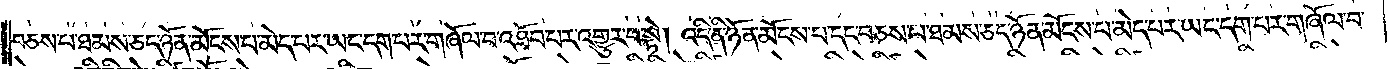བཅས་པ་ཐམས་ཅད་ཉོན་མོངས་པ་མེད་པར་ཡང་དག་པར་གཞོལ་བ་འཐོབ་པར་འགྱུར་བ་སྟེ། འདི་ནི་ཉོན་མོངས་པ་དང་བཅས་པ་ཐམས་ཅད་ཉོན་མོངས་པ་མེད་པར་ཡང་དག་པར་གཞོལ་བ་
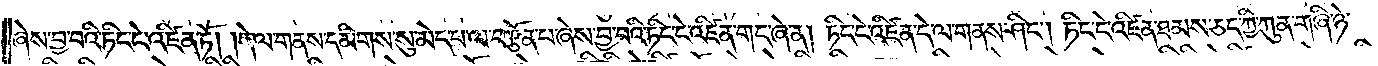ཞེས་བྱ་བའི་ཏིང་ངེ་འཛིན་ཏོ། །དེ་ལ་གནས་དམིགས་སུ་མེད་པ་ལ་བརྩོན་པ་ཞེས་བྱ་བའི་ཏིང་ངེ་འཛིན་གང་ཞེ་ན། ཏིང་ངེ་འཛིན་དེ་ལ་གནས་ཤིང༌། ཏིང་ངེ་འཛིན་ཐམས་ཅད་ཀྱི་ཀུན་གཞི་ཉེ་
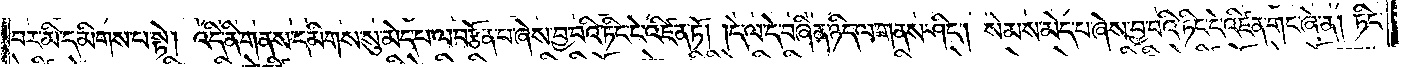བར་མི་དམིགས་པ་སྟེ། འདི་ནི་གནས་དམིགས་སུ་མེད་པ་ལ་བརྩོན་པ་ཞེས་བྱ་བའི་ཏིང་ངེ་འཛིན་ཏོ། །དེ་ལ་དེ་བཞིན་ཉིད་ལ་གནས་ཤིང༌། སེམས་མེད་པ་ཞེས་བྱ་བའི་ཏིང་ངེ་འཛིན་གང་ཞེ་ན། ཏིང་
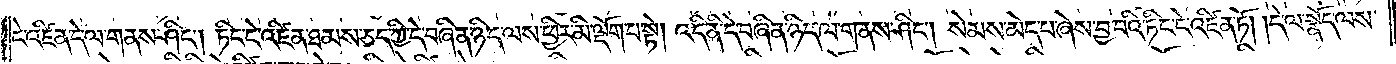ངེ་འཛིན་དེ་ལ་གནས་ཤིང༌། ཏིང་ངེ་འཛིན་ཐམས་ཅད་ཀྱི་དེ་བཞིན་ཉིད་ལས་ཕྱིར་མི་ལྡོག་པ་སྟེ། འདི་ནི་དེ་བཞིན་ཉིད་ལ་གནས་ཤིང༌། སེམས་མེད་པ་ཞེས་བྱ་བའི་ཏིང་ངེ་འཛིན་ཏོ། །དེ་ལ་སྣོད་ལས་
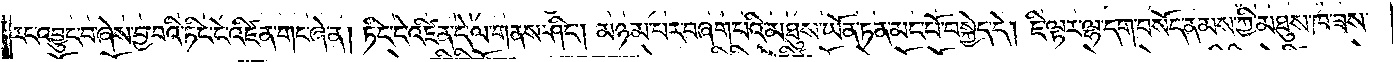རང་འབྱུང་བ་ཞེས་བྱ་བའི་ཏིང་ངེ་འཛིན་གང་ཞེ་ན། ཏིང་ངེ་འཛིན་དེ་ལ་གནས་ཤིང༌། མཉམ་པར་བཞག་པའི་མཐུས་ཡོན་ཏན་མང་པོ་བསྐྱེད་དེ། ཇི་ལྟར་ལྷ་དག་བསོད་ནམས་ཀྱི་མཐུས་ཁ་ཟས་
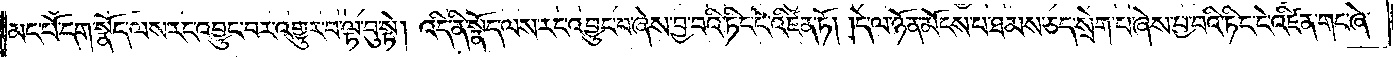མང་པོ་དག་སྣོད་ལས་རང་འབྱུང་བར་འགྱུར་བ་ལྟ་བུ་སྟེ། འདི་ནི་སྣོད་ལས་རང་འབྱུང་བ་ཞེས་བྱ་བའི་ཏིང་ངེ་འཛིན་ཏོ། །དེ་ལ་ཉོན་མོངས་པ་ཐམས་ཅད་སྲེག་པ་ཞེས་བྱ་བའི་ཏིང་ངེ་འཛིན་གང་ཞེ་
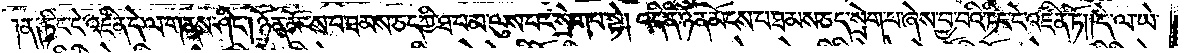ན༑ ཏིང་ངེ་འཛིན་དེ་ལ་གནས་ཤིང༌། ཉོན་མོངས་པ་ཐམས་ཅད་ཀྱི་ཐ་བ་མ་ལུས་པར་སྲེག་པ་སྟེ། འདི་ནི་ཉོན་མོངས་པ་ཐམས་ཅད་སྲེག་པ་ཞེས་བྱ་བའི་ཏིང་ངེ་འཛིན་ཏོ། །དེ་ལ་ཡེ་
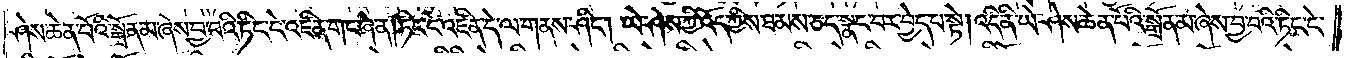ཤེས་ཆེན་པོ་སྒྲོན་མ་ཞེས་བྱ་བའི་ཏིང་ངེ་འཛིན་གང་ཞེ་ན། ཏིང་ངེ་འཛིན་དེ་ལ་གནས་ཤིང༌། ཡེ་ཤེས་ཀྱི་འོད་ཀྱིས་ཐམས་ཅད་སྣང་བར་བྱེད་པ་སྟེ། འདི་ནི་ཡེ་ཤེས་སྒྲོན་མ་ཞེས་བྱ་བའི་ཏིང་ངེ་
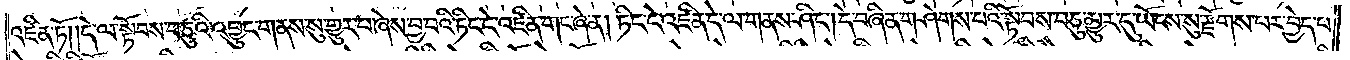འཛིན་ཏོ། །དེ་ལ་སྟོབས་བཅུའི་འབྱུང་གནས་སུ་གྱུར་པ་ཞེས་བྱ་བའི་ཏིང་ངེ་འཛིན་གང་ཞེ་ན། ཏིང་ངེ་འཛིན་དེ་ལ་གནས་ཤིང༌། དེ་བཞིན་གཤེགས་པའི་སྟོབས་བཅུ་མྱུར་དུ་ཡོངས་སུ་རྫོགས་པར་བྱེད་པ་
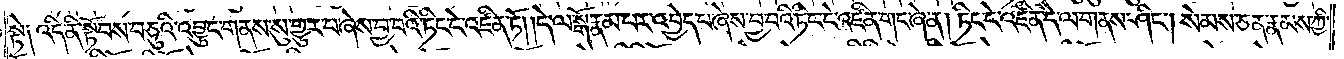སྟེ༑ འདི་ནི་སྟོབས་བཅུའི་འབྱུང་གནས་སུ་གྱུར་པ་ཞེས་བྱ་བའི་ཏིང་ངེ་འཛིན་ཏོ། །དེ་ལ་སྒོ་རྣམ་པར་འབྱེད་པ་ཞེས་བྱ་བའི་ཏིང་ངེ་འཛིན་གང་ཞེ་ན། ཏིང་ངེ་འཛིན་དེ་ལ་གནས་ཤིང༌། སེམས་ཅན་རྣམས་ཀྱི་
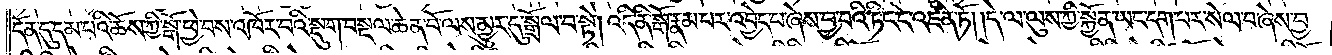དོན་དུ་དམ་པའི་ཆོས་ཀྱི་སྒོ་ཕྱེ་བས་འཁོར་བའི་སྡུག་བསྔལ་ཆེན་པོ་ལས་མྱུར་དུ་སྒྲོལ་བ་སྟེ། འདི་ནི་སྒོ་རྣམ་པར་འབྱེད་པ་ཞེས་བྱ་བའི་ཏིང་ངེ་འཛིན་ཏོ། །དེ་ལ་ལུས་ཀྱི་སྐྱོན་ཡང་དག་པར་སེལ་བ་ཞེས་བྱ་
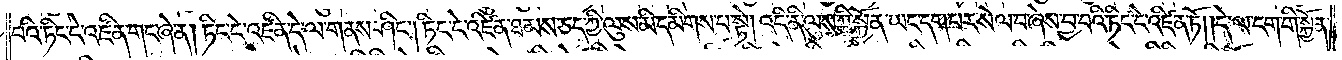བའི་ཏིང་ངེ་འཛིན་གང་ཞེ་ན། ཏིང་ངེ་འཛིན་དེ་ལ་གནས་ཤིང༌། ཏིང་ངེ་འཛིན་ཐམས་ཅད་ཀྱི་ལུས་མི་དམིགས་པ་སྟེ། འདི་ནི་ལུས་ཀྱི་སྐྱོན་ཡང་དག་པར་སེལ་བ་ཞེས་བྱ་བའི་ཏིང་ངེ་འཛིན་ཏོ། །དེ་ལ་ངག་གི་སྐྱོན་
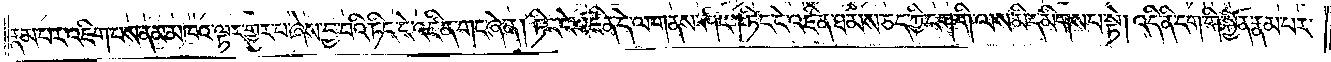རྣམ་པར་འཇིག་པས་ནམ་མཁའ་ལྟར་གྱུར་པ་ཞེས་བྱ་བའི་ཏིང་ངེ་འཛིན་གང་ཞེ་ན། ཏིང་ངེ་འཛིན་དེ་ལ་གནས་ཤིང༌། ཏིང་ངེ་འཛིན་ཐམས་ཅད་ཀྱི་ངག་གི་ལས་མི་དམིགས་པ་སྟེ། འདི་ནི་ངག་གི་སྐྱོན་རྣམ་པར་
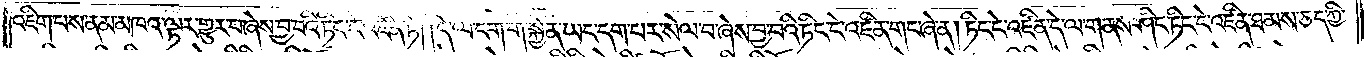འཇིག་པས་ནམ་མཁའ་ལྟར་གྱུར་པ་ཞེས་བྱ་བའི་ཏིང་ངེ་འཛིན་ཏོ། །དེ་ལ་ངག་གི་སྐྱོན་ཡང་དག་པར་སེལ་བ་ཞེས་བྱ་བའི་ཏིང་ངེ་འཛིན་གང་ཞེ་ན། ཏིང་ངེ་འཛིན་དེ་ལ་གནས་ཤིང་ཏིང་ངེ་འཛིན་ཐམས་ཅད་ཀྱི་
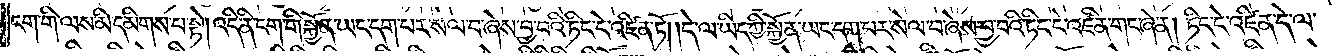ངག་གི་ལས་མི་དམིགས་པ་སྟེ། འདི་ནི་ངག་གི་སྐྱོན་ཡང་དག་པར་སེལ་བ་ཞེས་བྱ་བའི་ཏིང་ངེ་འཛིན་ཏོ། །དེ་ལ་ཡིད་ཀྱི་སྐྱོན་ཡང་དག་པར་སེལ་བ་ཞེས་བྱ་བའི་ཏིང་ངེ་འཛིན་གང་ཞེ་ན། ཏིང་ངེ་འཛིན་དེ་ལ་
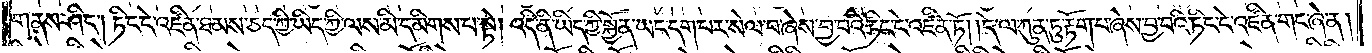གནས་ཤིང་ཏིང་ངེ་འཛིན་ཐམས་ཅད་ཀྱི་ཡིད་ཀྱི་ལས་མི་དམིགས་པ་སྟེ། འདི་ནི་ཡིད་ཀྱི་སྐྱོན་ཡང་དག་པར་སེལ་བ་ཞེས་བྱ་བའི་ཏིང་ངེ་འཛིན་ཏོ། །དེ་ལ་ཀུན་ཏུ་རྟོག་པ་ཞེས་བྱ་བའི་ཏིང་ངེ་འཛིན་གང་ཞེ་ན།
